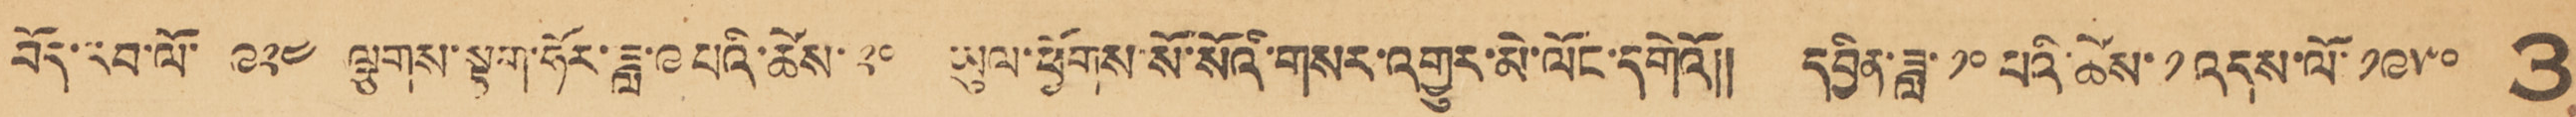བོད་རབ་ལོ་ ༩༢༤ ལྕགས་སྟག་ཧོར་ཟླ་ ༩ པའི་ཚེས་ ༢༠ ཡུལ་ཕྱོགས་སོ་སོའི་གསར་འགྱུར་མེ་ལོང་དགེའོ།། དབྱིན་ཟླ་ ༡༠ པའི་ཚེས་ ༡ འདས་ལོ་ ༡༩༥༠ 3
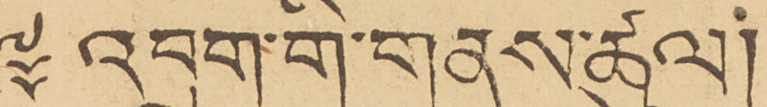༈ འབྲུག་གི་གནས་ཚུལ།
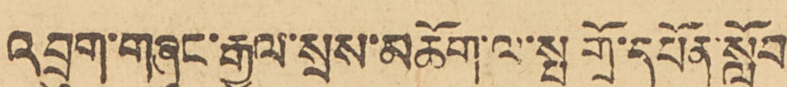འབྲུག་གཞུང་རྒྱལ་སྲས་མཆོག་ལ་སྤ གྲོ་དཔོན་སློབ་
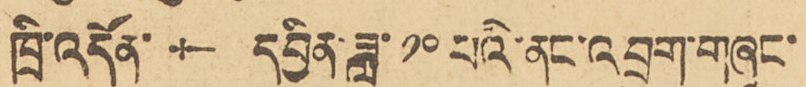ཁྲི་འདོན་ † དབྱིན་ཟླ་ ༡༠ པའི་ནང་འབྲུག་གཞུང་
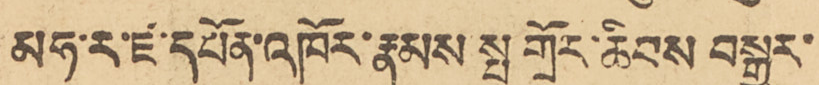མཧ་ར་ཛ་དཔོན་འཁོར་རྣམས སྤ གྲོར་ཆིབས བསྒྱུར་
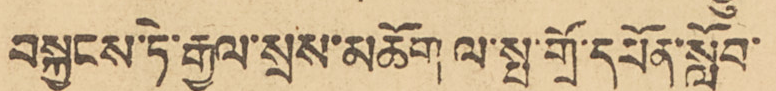བསྐྱངས་ཏེ་རྒྱལ་སྲས་མཆོག ལ་སྤ་གྲོ་དཔོན་སློབ་
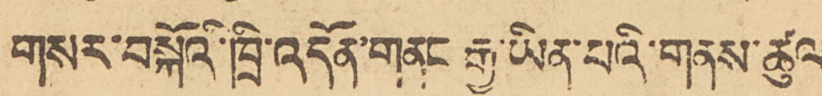གསར་བསྐོའི་ཁྲི་འདོན་གནང རྒྱུ་ཡིན་པའི་གནས་ཚུལ་
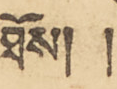ཐོས། །
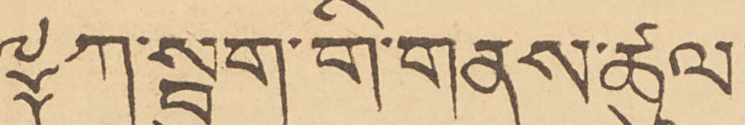༈ ཀ་སྦུག་གི་གནས་ཚུལ།
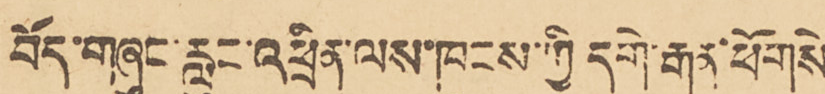བོད་གཞུང་རླུང་འཕྲིན་ལས་ཁུངས་ཀྱི དགེ་རྒན་ཕོགསེ་
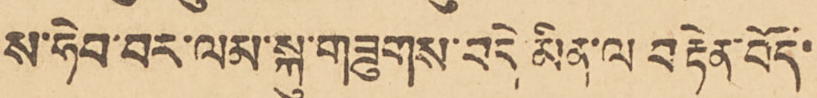ས་ཧེབ་བར་ལན་སྐུ་གཟུགས་བདེ་མིན་ལ བརྟེན་བོད་
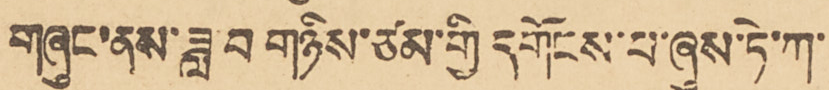གཞུང་ནས་ཟླ་བ གཉིས་ཙམ་གྱི དགོངས་པ་ཞུས་ཏེ་ཀ་
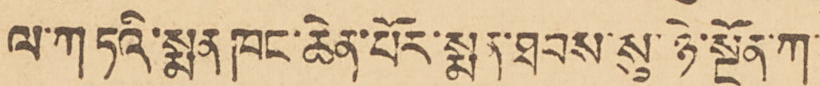ལ་ཀ ཏའི་སྨན ཁང་ཆེན་པོར་སྨན་ཐབས་སུ་ཉེ་སྔོན་ཀ་
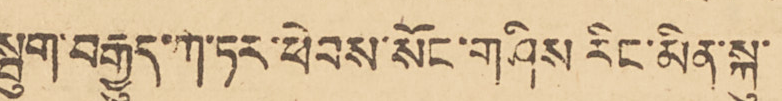སྦུག་བརྒྱུད་ཀ་ཏར་ཕེབས་སོང་གཤིས རིང་མིན་སྐུ་
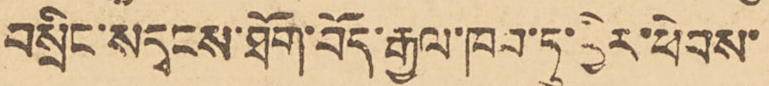བསྲིང་སདྭངས་ཐོག་བོད་རྒྱལ་ཁབ་ཏུ་ཕྱིར་ཕེབས་
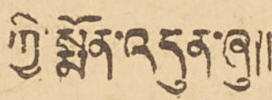ཀྱི་སྨོན་འདུན་ཞུ།།
